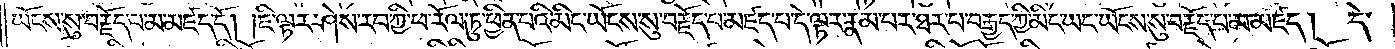ཡོངས་སུ་བརྗོད་པ་མ་མཛད་དོ། །ཇི་ལྟར་ཤེས་རབ་ཀྱི་ཕ་རོལ་ཏུ་ཕྱིན་པའི་མིང་ཡོངས་སུ་བརྗོད་པ་མཛད་པ་དེ་ལྟར་རྣམ་པར་ཐར་པ་བརྒྱད་ཀྱི་མིང་ཡང་ཡོངས་སུ་བརྗོད་པ་མ་མཛད། དེ་
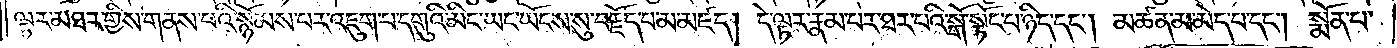ལྟར་མཐར་གྱིས་གནས་པའི་སྙོམས་པར་འཇུག་པ་དགུའི་མིང་ཡང་ཡོངས་སུ་བརྗོད་པ་མ་མཛད། དེ་ལྟར་རྣམ་པར་ཐར་པའི་སྒོ་སྟོང་པ་ཉིད་དང༌། མཚན་མ་མེད་པ་དང༌། སྨོན་པ་
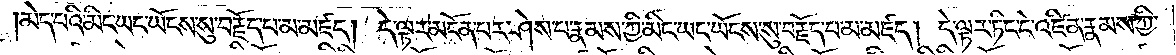མེད་པའི་མིང་ཡང་ཡོངས་སུ་བརྗོད་པ་མ་མཛད། དེ་ལྟར་མངོན་པར་ཤེས་པ་རྣམས་ཀྱི་མིང་ཡང་ཡོངས་སུ་བརྗོད་པ་མ་མཛད། དེ་ལྟར་ཏིང་ངེ་འཛིན་རྣམས་ཀྱི་
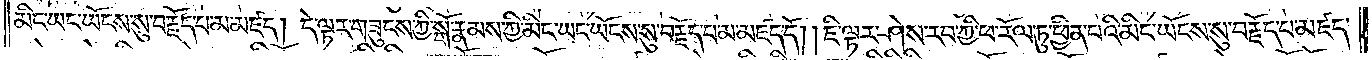མིང་ཡང་ཡོངས་སུ་བརྗོད་པ་མ་མཛད། དེ་ལྟར་གཟུངས་ཀྱི་སྒོ་རྣམས་ཀྱི་མིང་ཡང་ཡོངས་སུ་བརྗོད་པ་མ་མཛད་དོ། །ཇི་ལྟར་ཤེས་རབ་ཀྱི་ཕ་རོལ་ཏུ་ཕྱིན་པའི་མིང་ཡོངས་སུ་བརྗོད་པ་མཛད་
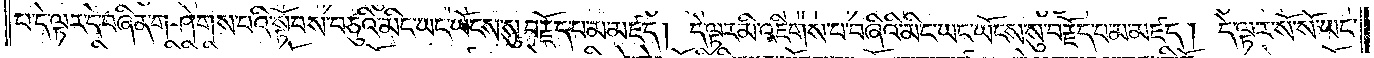པ་དེ་ལྟར་དེ་བཞིན་གཤེགས་པའི་སྟོབས་བཅུའི་མིང་ཡང་ཡོངས་སུ་བརྗོད་པ་མ་མཛད། དེ་ལྟར་མི་འཇིགས་པ་བཞིའི་མིང་ཡང་ཡོངས་སུ་བརྗོད་པ་མ་མཛད། དེ་ལྟར་སོ་སོ་ཡང་
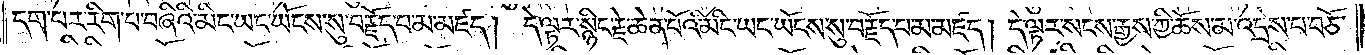དག་པར་རིག་པ་བཞིའི་མིང་ཡང་ཡོངས་སུ་བརྗོད་པ་མ་མཛད། དེ་ལྟར་སྙིང་རྗེ་ཆེན་པོའི་མིང་ཡང་ཡོངས་སུ་བརྗོད་པ་མ་མཛད། དེ་ལྟར་སངས་རྒྱས་ཀྱི་ཆོས་མ་འདྲེས་པ་བཅོ་
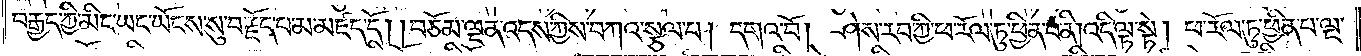བརྒྱད་ཀྱི་མིང་ཡང་ཡོངས་སུ་བརྗོད་པ་མ་མཛད་དོ། །བཅོམ་ལྡན་འདས་ཀྱིས་བཀའ་སྩལ་པ། དགའ་བོ། ཤེས་རབ་ཀྱི་ཕ་རོལ་ཏུ་ཕྱིན་པ་ནི་འདི་ལྟ་སྟེ། ཕ་རོལ་ཏུ་ཕྱིན་པ་ལྔ་
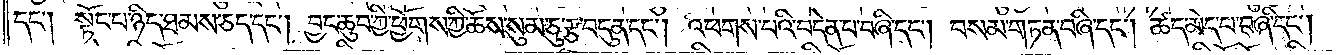དང༌། སྟོང་པ་ཉིད་ཐམས་ཅད་དང༌། བྱང་ཆུབ་ཀྱི་ཕྱོགས་ཀྱི་ཆོས་སུམ་ཅུ་རྩ་བདུན་དང༌། འཕགས་པའི་བདེན་པ་བཞི་དང༌། བསམ་གཏན་བཞི་དང༌། ཚད་མེད་པ་བཞི་དང༌།
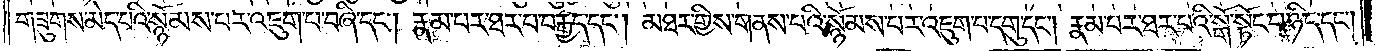གཟུགས་མེད་པའི་སྙོམས་པར་འཇུག་པ་བཞི་དང༌། རྣམ་པར་ཐར་པ་བརྒྱད་དང༌། མཐར་གྱིས་གནས་པའི་སྙོམས་པར་འཇུག་པ་དགུ་དང༌། རྣམ་པར་ཐར་པའི་སྒོ་སྟོང་པ་ཉིད་དང༌།
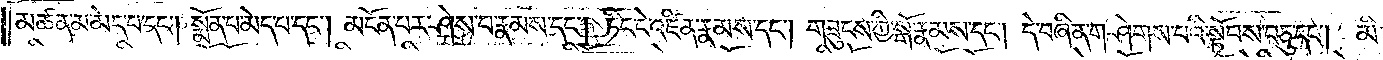མཚན་མ་མེད་པ་དང༌། སྨོན་པ་མེད་པ་དང༌། མངོན་པར་ཤེས་པ་རྣམས་དང༌། ཏིང་ངེ་འཛིན་རྣམས་དང༌། གཟུངས་ཀྱི་སྒོ་རྣམས་དང༌། དེ་བཞིན་གཤེགས་པའི་སྟོབས་བཅུ་དང༌། མི་
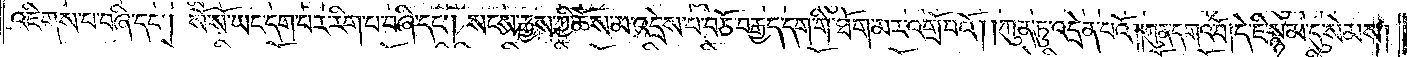འཇིགས་པ་བཞི་དང༌། སོ་སོ་ཡང་དག་པར་རིག་པ་བཞི་དང༌། སངས་རྒྱས་ཀྱི་ཆོས་མ་འདྲེས་པ་བཅོ་བརྒྱད་དག་གི་ཐོག་མར་འགྲོ་བའོ། །ཀུན་ཏུ་འདྲེན་པའོ༎ཀུན་དགའ་བོ།དེ་ཇི་སྙམ་དུ་སེམས།
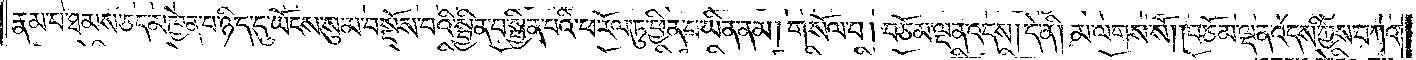རྣམ་པ་ཐམས་ཅད་མཁྱེན་པ་ཉིད་དུ་ཡོངས་སུ་མ་བསྔོས་པའི་སྦྱིན་པ་སྦྱིན་པའི་ཕ་རོལ་ཏུ་ཕྱིན་པ་ཡིན་ནམ། གསོལ་པ། བཅོམ་ལྡན་འདས། དེ་ནི། མ་ལགས་སོ། །བཅོམ་ལྡན་འདས་ཀྱིས་བཀའ་
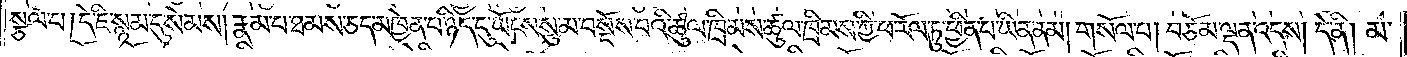སྩལ་པ། དེ་ཇི་སྙམ་དུ་སེམས། རྣམ་པ་ཐམས་ཅད་མཁྱེན་པ་ཉིད་དུ་ཡོངས་སུ་མ་བསྔོས་པའི་ཚུལ་ཁྲིམས་ཚུལ་ཁྲིམས་ཀྱི་ཕ་རོལ་ཏུ་ཕྱིན་པ་ཡིན་ནམ། གསོལ་པ། བཅོམ་ལྡན་འདས། དེ་ནི། མ་
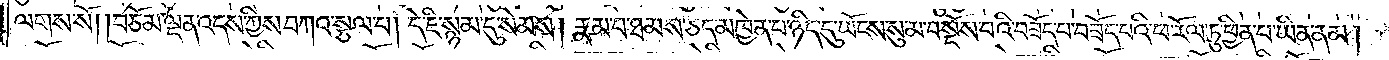ལགས་སོ། །བཅོམ་ལྡན་འདས་ཀྱིས་བཀའ་སྩལ་པ། དེ་ཇི་སྙམ་དུ་སེམས། རྣམ་པ་ཐམས་ཅད་མཁྱེན་པ་ཉིད་དུ་ཡོངས་སུ་མ་བསྔོས་པའི་བཟོད་པ་བཟོད་པའི་ཕ་རོལ་ཏུ་ཕྱིན་པ་ཡིན་ནམ།
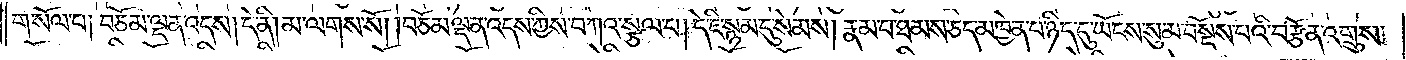གསོལ་པ། བཅོམ་ལྡན་འདས། དེ་ནི། མ་ལགས་སོ། །བཅོམ་ལྡན་འདས་ཀྱིས་བཀའ་སྩལ་པ། དེ་ཇི་སྙམ་དུ་སེམས། རྣམ་པ་ཐམས་ཅད་མཁྱེན་པ་ཉིད་དུ་ཡོངས་སུ་མ་བསྔོས་པའི་བརྩོན་འགྲུས་
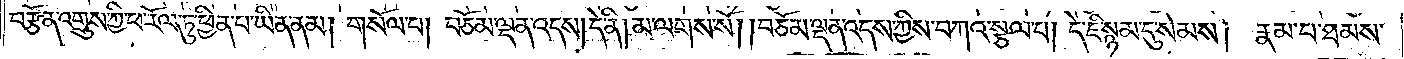བརྩོན་འགྲུས་ཀྱི་ཕ་རོལ་ཏུ་ཕྱིན་པ་ཡིན་ནམ། གསོལ་བ། བཅོམ་ལྡན་འདས། དེ་ནི། མ་ལགས་སོ། །བཅོམ་ལྡན་འདས་ཀྱིས་བཀའ་སྩལ་པ། དེ་ཇི་སྙམ་དུ་སེམས། རྣམ་པ་ཐམས་
